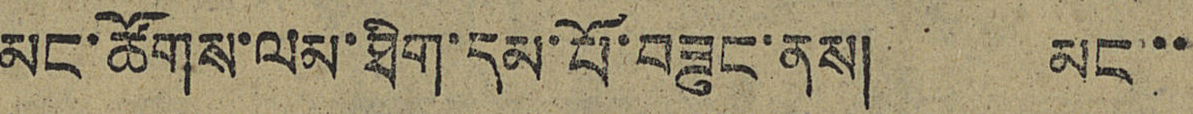མང་ཚོགས་ལམ་ཐིག་དམ་པོ་བཟུང་ནས། མང་་་
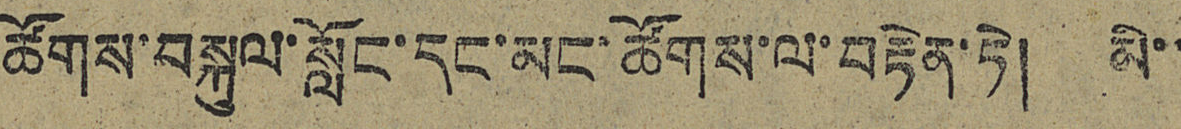ཚོགས་བསྐུལ་སློང་དང་མང་ཚོགས་ལ་བརྟེན་ཏེ། མི་་
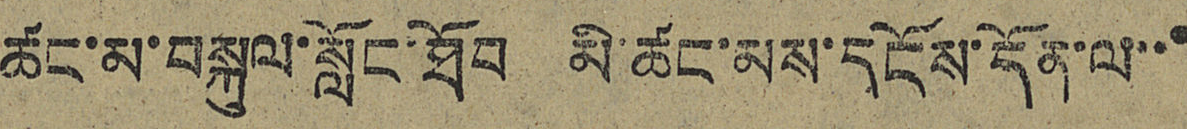ཚང་མ་བསྐུལ་སློང་ཐོབ མི་ཚང་མས་དངོས་དོན་ལ་་་
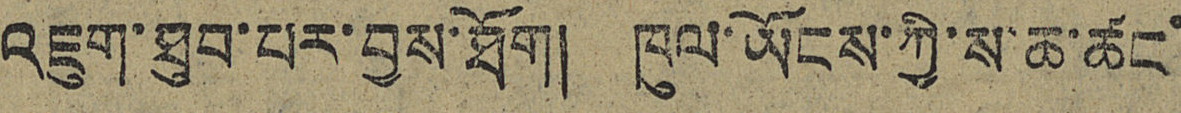འཇུག་ཐུབ་པར་བྱས་ཐོག། ཁུལ་ཡོགས་ཀྱི་ས་ཆ་ཚང་
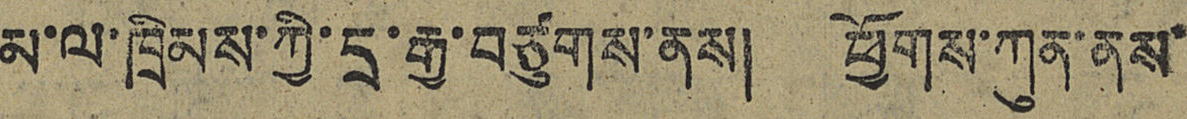མ་ལ་ཁྲིམས་ཀྱི་དྲ་རྒྱ་བཙུགས་ནས། ཕྱོགས་ཀུན་ནས་
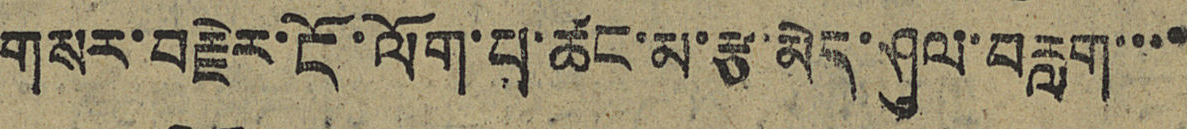གསར་བརྗེར་ངོ་ལོག་པ་ཚང་མ་རྩ་མེད་ཤུལ་བརླག་་་་
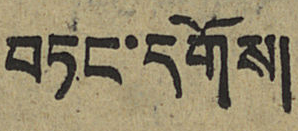བཏང་དགོས།
